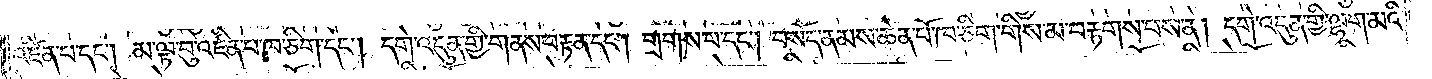འཛིན་པ་དང༌། མ་ལྟ་བུ་འཛིན་པ་ཁ་ཅིག་དང༌། དགེ་འདུན་གྱི་གནས་བརྟན་དང༌། གྲགས་པ་དང༌། བསོད་ནམས་ཆེན་པོ་ཁ་ཅིག་གིས་མ་བརྟགས་པས་ན། དགེ་འདུན་གྱི་ལྷག་མའི་
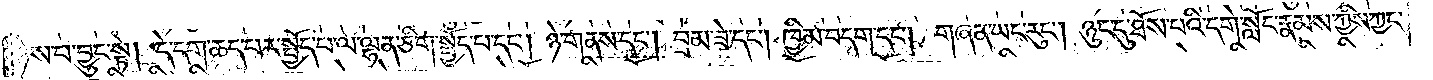ཉེས་པ་བྱུང་སྟེ། དེ་དག་ཆད་པར་སྤྱོད་པ་ལ་ལྷན་ཅིག་སྤྱོད་པ་དང༌། ཉེ་གནས་དང༌། བྲམ་ཟེ་དང༌། ཁྱིམ་བདག་དང༌། གཞན་ཡང་རུང༌། ཉུང་དུ་ཐོས་པའི་དགེ་སློང་རྣམས་ཀྱིས་ཀྱང་
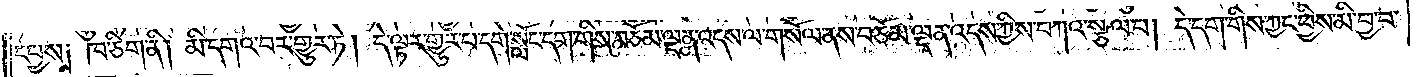དཔྱས། ཁ་ཅིག་ནི། མི་དགའ་བར་གྱུར་ཏེ། དེ་ལྟར་གྱུར་པ་དགེ་སློང་དག་གིས་བཅོམ་ལྡན་འདས་ལ་གསོལ་ནས་བཅོམ་ལྡན་འདས་ཀྱིས་བཀའ་སྩལ་པ། དེ་དག་གིས་ཀྱང་ཕྱིས་མི་བྱ་བ་
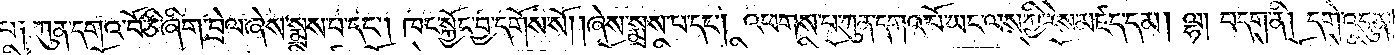པ༑ ཀུན་དགའ་བོ་ཅི་ཞིག་བྲེལ་ཞེས་སྨྲས་པ་དང༌། ཁང་སྐྱོང་བྱ་དགོས་སོ། །ཞེས་སྨྲས་པ་དང༌། འཕགས་པ་ཀུན་དགའ་བོ་ཡང་ལས་ཀྱི་རེས་མཛད་དམ། ལྷ། བདག་ནི། དགེ་འདུན་
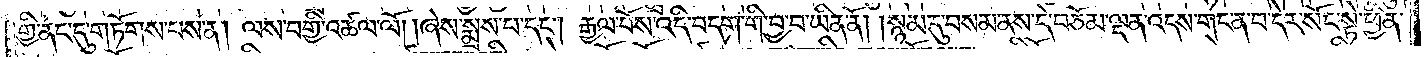གྱི་ནང་དུ་གཏོགས་པས་ན། ལས་བགྱི་འཚལ་ལོ། །ཞེས་སྨྲས་པ་དང༌། རྒྱལ་པོས་འདི་བདག་གི་བྱ་བ་ཡིན་ནོ། །སྙམ་དུ་བསམ་ནས་དེ་བཅོམ་ལྡན་འདས་གང་ན་བ་དེར་སོང་སྟེ་ཕྱིན་
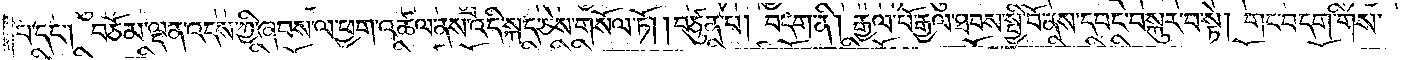པ་དང༌། བཅོམ་ལྡན་འདས་ཀྱི་ཞབས་ལ་ཕྱག་འཚལ་ནས་འདི་སྐད་ཅེས་གསོལ་ཏོ། །བཙུན་པ། བདག་ནི། རྒྱལ་པོ་རྒྱལ་ཐབས་སྤྱི་བོ་ནས་དབང་བསྐུར་བ་སྟེ། གང་བདག་གིས་
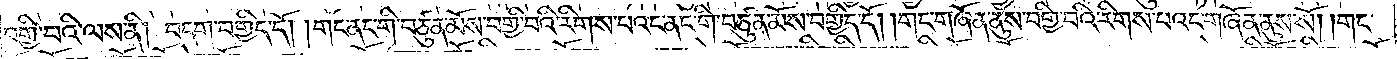བགྱི་བའི་ལས་ནི། བདག་བགྱིད་དོ། །གང་ནང་གི་བཙུན་མོས་བགྱི་བའི་རིགས་པའང་ནང་གི་བཙུན་མོས་བགྱིད་དོ། །གང་གཞོན་ནུས་བགྱི་བའི་རིགས་པའང་གཞོན་ནུས་སོ། །གང་
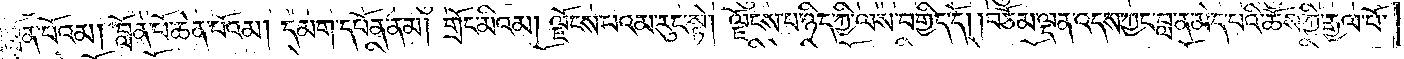བློན་པོའམ། བློན་པོ་ཆེན་པོའམ། དམག་དཔོན་ནམ། གྲོང་མིའམ། ལྗོངས་པའམ་རུང་སྟེ། ལྗོངས་པ་ཉིད་ཀྱི་ལས་བགྱིད་དོ། །བཅོམ་ལྡན་འདས་ཀྱང་བླ་ན་མེད་པའི་ཆོས་ཀྱི་རྒྱལ་པོ་
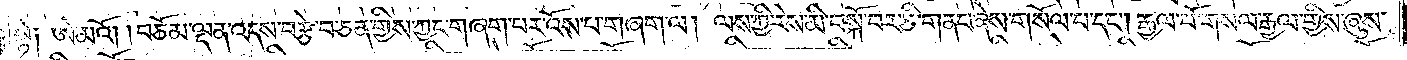སྟེ༑ ཨེ་མའོ། །བཅོམ་ལྡན་འདས་བརྩེ་བ་ཅན་གྱིས་ཀྱང་གཞག་པར་འོས་པ་གཞག་ལ། ལས་ཀྱི་རེས་མི་བསྐོ་བར་ཅི་གནང་ཞེས་གསོལ་པ་དང༌། རྒྱལ་པོ་གསལ་རྒྱལ་གྱིས་ཞུས་
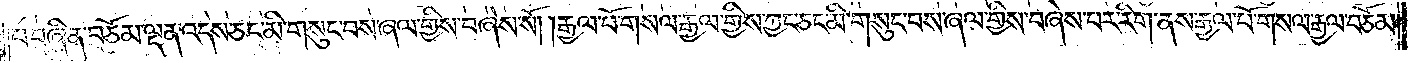པ་བཞིན་བཅོམ་ལྡན་འདས་ཅང་མི་གསུང་བས་ཞལ་གྱིས་བཞེས་སོ། །རྒྱལ་པོ་གསལ་རྒྱལ་གྱིས་ཀྱང་ཅང་མི་གསུང་བས་ཞལ་གྱིས་བཞེས་པར་རིག་ནས་རྒྱལ་པོ་གསལ་རྒྱལ་བཅོམ་
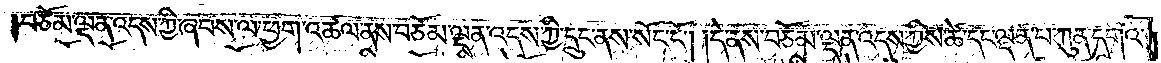བཅོམ་ལྡན་འདས་ཀྱི་ཞབས་ལ་ཕྱག་འཚལ་ནས་བཅོམ་ལྡན་འདས་ཀྱི་དྲུང་ནས་སོང་ངོ༌། །དེ་ནས་བཅོམ་ལྡན་འདས་ཀྱི་ཚེ་དང་ལྡན་པ་ཀུན་དགའ་
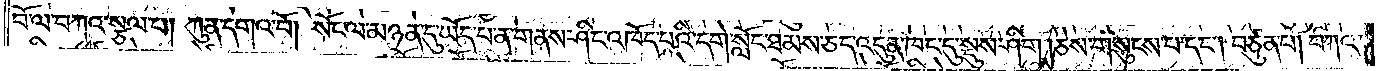བོ་ལ་བཀའ་སྩལ་པ། ཀུན་དགའ་བོ། སོང་ལ་མཉན་དུ་ཡོད་པ་ན་གནས་ཤིང་འཁོད་པའི་དགེ་སློང་ཐམས་ཅད་འདུན་ཁང་དུ་སྡུས་ཤིག །ཅེས་གསུངས་པ་དང༌། བཙུན་པ། བཀའ་
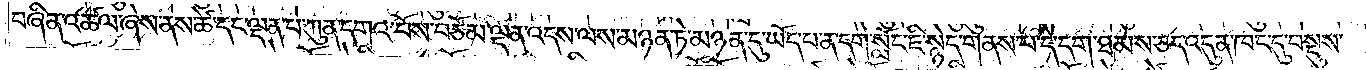བཞིན་འཚལ་ཞེས་ནས་ཚེ་དང་ལྡན་པ་ཀུན་དགའ་བོས་བཅོམ་ལྡན་འདས་ལས་མཉན་ཏེ་མཉན་དུ་ཡོད་པ་ན་དགེ་སློང་ཇི་སྙེད་གནས་པ་དེ་དག་ཐམས་ཅད་འདུན་ཁང་དུ་བསྡུས་
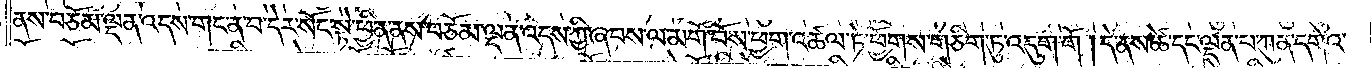ནས་བཅོམ་ལྡན་འདས་གང་ན་བ་དེར་སོང་སྟེ་ཕྱིན་ནས་བཅོམ་ལྡན་འདས་ཀྱི་ཞབས་ལ་མགོ་བོས་ཕྱག་འཚལ་ཏེ་ཕྱོགས་གཅིག་ཏུ་འདུག་གོ །དེ་ནས་ཚེ་དང་ལྡན་པ་ཀུན་དགའ་
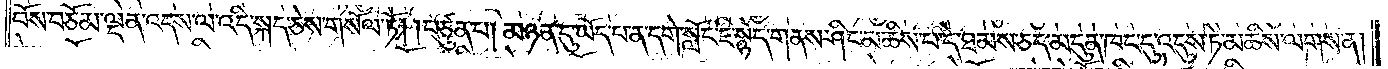བོས་བཅོམ་ལྡན་འདས་ལ་འདི་སྐད་ཅེས་གསོལ་ཏོ། །བཙུན་པ། མཉན་དུ་ཡོད་པ་ན་དགེ་སློང་ཇི་སྙེད་གནས་ཤིང་མཆིས་པ་དེ་ཐམས་ཅད་མདུན་ཁང་དུ་འདུས་ཏེ་མཆིས་ལགས་ན།
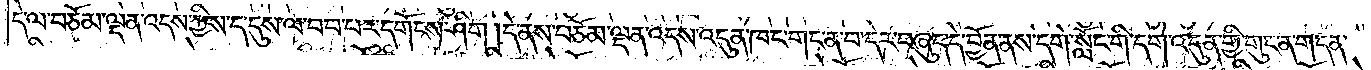དེ་ལ་བཅོམ་ལྡན་འདས་ཀྱིས་ད་དུས་ལ་བབ་པར་དགོངས་ཤིག །དེ་ནས་བཅོམ་ལྡན་འདས་འདུན་ཁང་གང་ན་བ་དེར་བཞུད་དེ་བྱོན་ནས་དགེ་སློང་གི་དགེ་འདུན་གྱི་གུང་ན་གདན་
